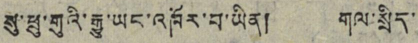སུ་ཕྲུ་གུའི་རྒྱུ་ཡང་འཁོར་བ་ཡིན། གལ་སྲིད་
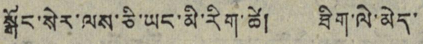སྒོང་སེར་ལས་ཅི་ཡང་མི་རིག་ཚེ། ཐིག་ལེ་མེད་
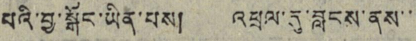པའི་བྱ་སྒོང་ཡིན་པས། འཕྲུལ་དུ་བླངས་ནས་་
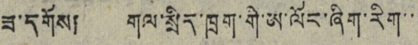ཟ་དགོས། གལ་སྲིད་ཁྲག་གི་ཨ་ལོང་ཞིག་རིག་་
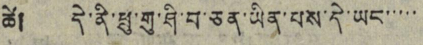ཚེ། དེ་ནི་ཕྲུ་གུ་ཤི་བ་ཅན་ཡིན་པས་དེ་ཡང་་་་་
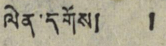ལེན་དགོས། །
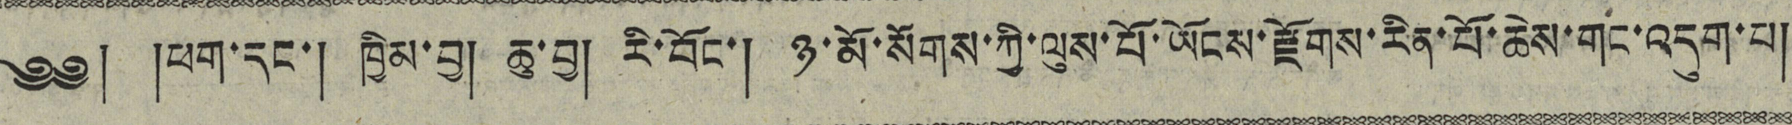༄༅། །ཕག་དང་། ཁྱིམ་བྱ། ཆུ་བྱ། རི་བོང་། ཉ་མོ་སོགས་ཀྱི་ལུས་པོ་ཡོངས་རྫོགས་རིན་པོ་ཆེས་གང་འདུག་པ།
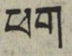ཕག
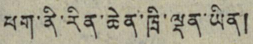ཕག་ནི་རིན་ཆེན་ཁྲི་ལྡན་ཡིན།
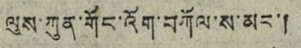ལུས་ཀུན་གོང་འོག་བཀོལ་ས་མང་།
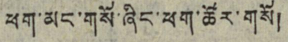ཕག་མང་གསོ་ཞིང་ཕག་ཚོར་གསོ།
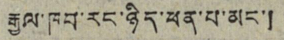རྒྱལ་ཁབ་རང་ཉིད་ཕན་པ་མང་།
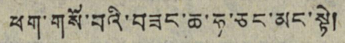ཕག་གསོ་བའི་བཟང་ཆ་ཧ་ཅང་མང་སྟེ།
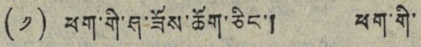(༡) ཕག་གི་ཤ་ཟོས་ཆོག་ཅིང་། ཕག་གི་
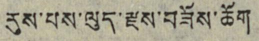རུས་པས་ལུད་རྫས་བཟོས་ཆོག
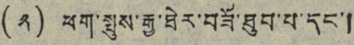(༢) ཕག་སྤུས་རྒྱ་ཐེར་བཟོ་ཐུབ་པ་དང་།
